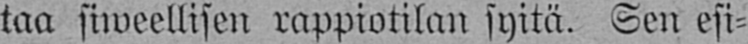taa siweellisen rappiotilan syitä. Sen esi-
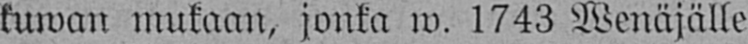kuwan mukaan, jonka w. 1743 Wenäjälle
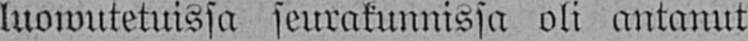luowutetuissa seurakunnissa oli antanut
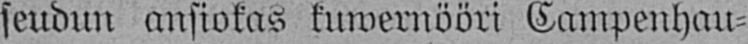seudun ansiokas kuwernööri Campenhau-
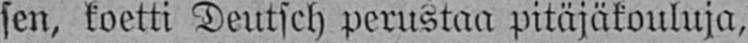sen, koetti Deutsch perustaa pitäjäkouluja,
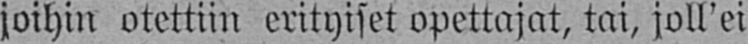joihin otettiin erityiset opettajat, tai, joll'ei
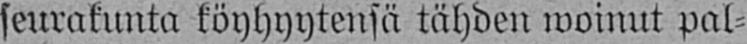seurakunta köyhyytensä tähden woinut pal-
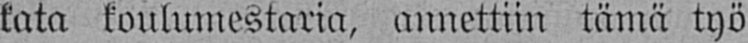kata koulumestaria, annettiin tämä työ
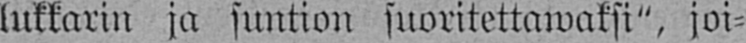lukkarin ja suntion suoritettawaksi", joi-
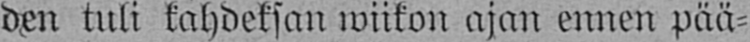den tuli kahdeksan wiikon ajan ennen pää-
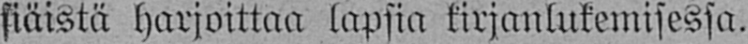siäistä harjoittaa lapsia kirjanlukemisessa.
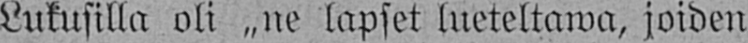Lukusilla oli „ne lapset lueteltawa, joiden
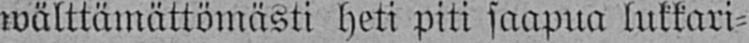wälttämättömästi heti piti saapua lukkari-
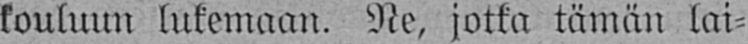kouluun lukemaan. Ne, jotka tämän lai-
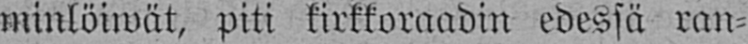minlöiwät, piti kirkkoraadin edessä ran-
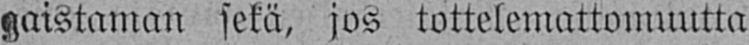gaistaman sekä, jos tottelemattomuutta
